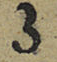3
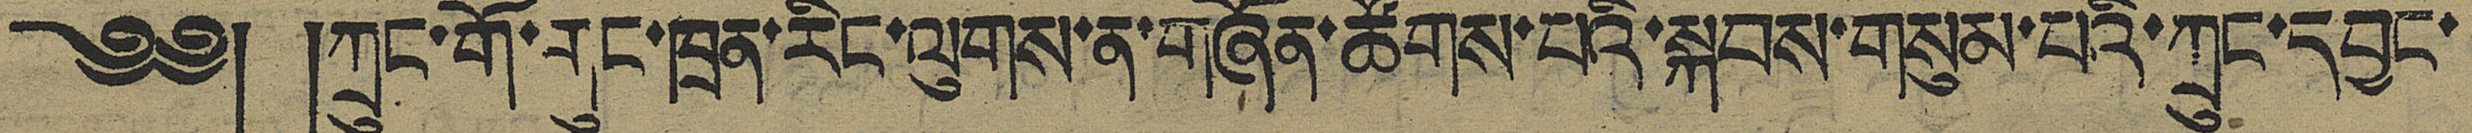༄༅། །ཀྲུང་གོ་གུང་ཁྲན་རིང་ལུགས་ན་གཞོན་ཚོགས་པའི་སྐབས་གསུམ་པའི་ཀྲུང་དབྱང་
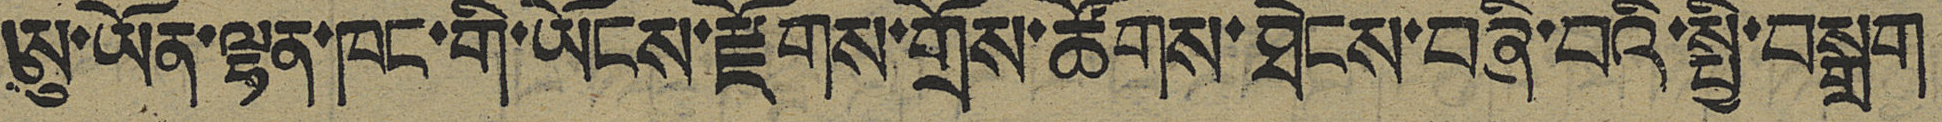ཨུ་ཡོན་ལྷན་ཁང་གི་ཡོངས་རྫོགས་གྲོས་ཚོགས་ཐེངས་བཞི་བའི་སྤྱི་བསྒྲག
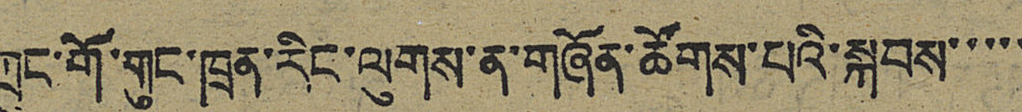ཀྲུང་གོ་གུང་ཁྲན་རིང་ལུགས་ན་གཞོན་ཚོགས་པའི་སྐབས་་་་་
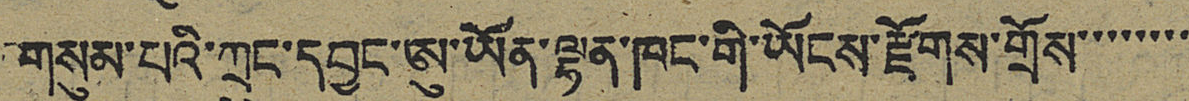གསུམ་པའི་ཀྲུང་དབྱང་ཨུ་ཡོན་ལྷན་ཁང་གི་ཡོངས་རྫོགས་གྲོས་་་་་་་་
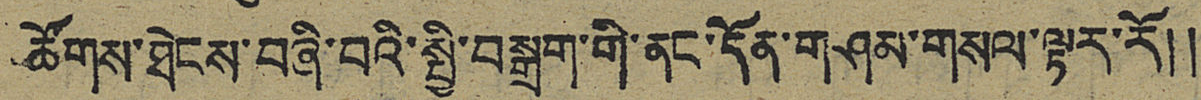ཚོགས་ཐེངས་བཞི་བའི་སྤྱི་བསྒྲག་གི་ནང་དོན་གཤམ་གསལ་ལྟར་རོ༎
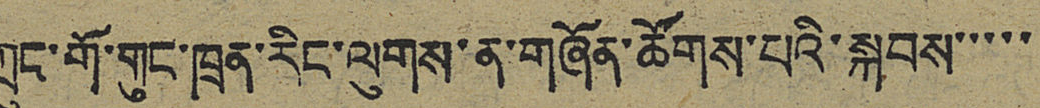ཀྲུང་གོ་གུང་ཁྲན་རིང་ལུགས་ན་གཞོན་ཚོགས་པའི་སྐབས་་་་་
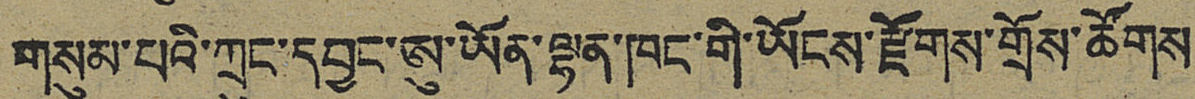གསུམ་པའི་ཀྲུང་དབྱང་ཨུ་ཡོན་ལྷན་ཁང་གི་ཡོངས་རྫོགས་གྲོས་ཚོགས
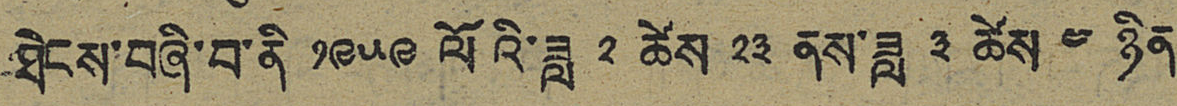ཐེངས་བཞི་བ་ནི ༡༩༥༩ ལོའི་ཟླ ༢ ཚེས ༢༣ ནས་ཟླ ༣ ཚེས ༤ ཉིན་
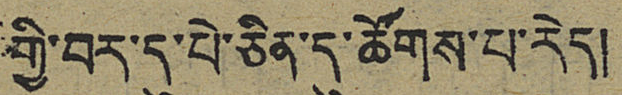གྱི་བར་དུ་པེ་ཅིན་དུ་ཚོགས་པ་རེད།
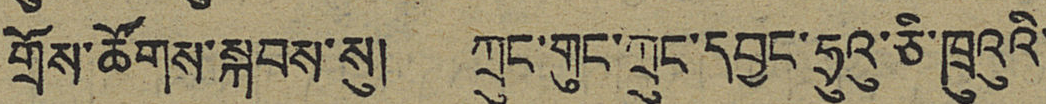གྲོས་ཚོགས་སྐབས་སུ། ཀྲུང་གུང་ཀྲུང་དབྱང་ཧྲུའུ་ཅི་ཁྲུའུའི་
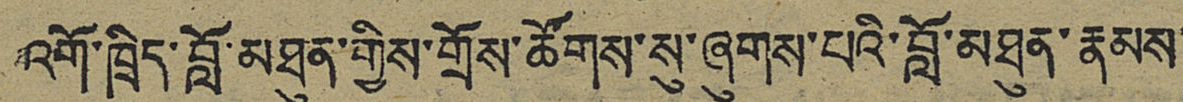འགོ་ཁྲིད་བློ་མཐུན་གྱིས་གྲོས་ཚོགས་སུ་ཞུགས་པའི་བློ་མཐུན་རྣམས་
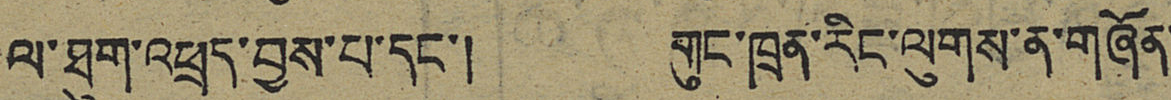ལ་ཐུག་འཕྲད་བྱས་པ་དང་། གུང་ཁྲན་རིང་ལུགས་ན་གཞོན་
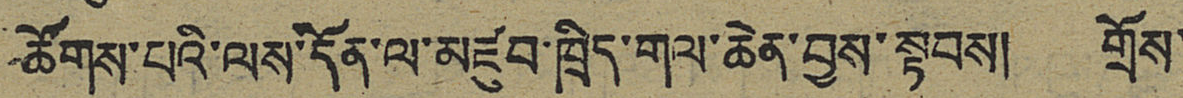ཚོགས་པའི་ལས་དོན་ལ་མཛུབ་ཁྲིད་གལ་ཆེན་བྱས་སྟབས། གྲོས་
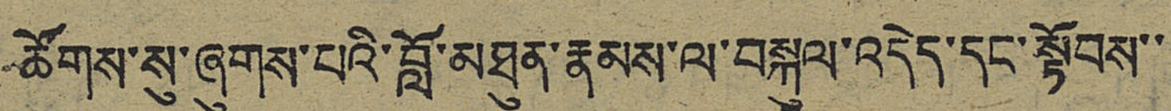ཚོགས་སུ་ཞུགས་པའི་བློ་མཐུན་རྣམས་ལ་བསྐུལ་འདེད་དང་སྟོབས་་་
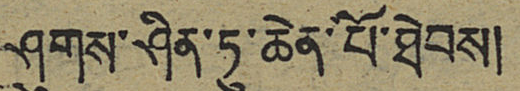ཤུགས་ཤིན་ཏུ་ཆེན་པོ་ཐེབས།
